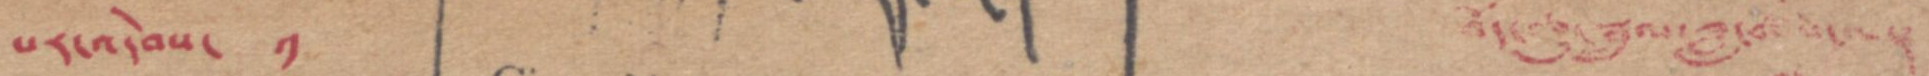པར་འདེབས་ ༡ བོད་ཆུ་སྦྲུལ་ཟླ་བ་
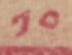༡༠
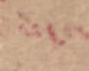ཚེས་
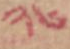༢༦
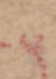ལ།
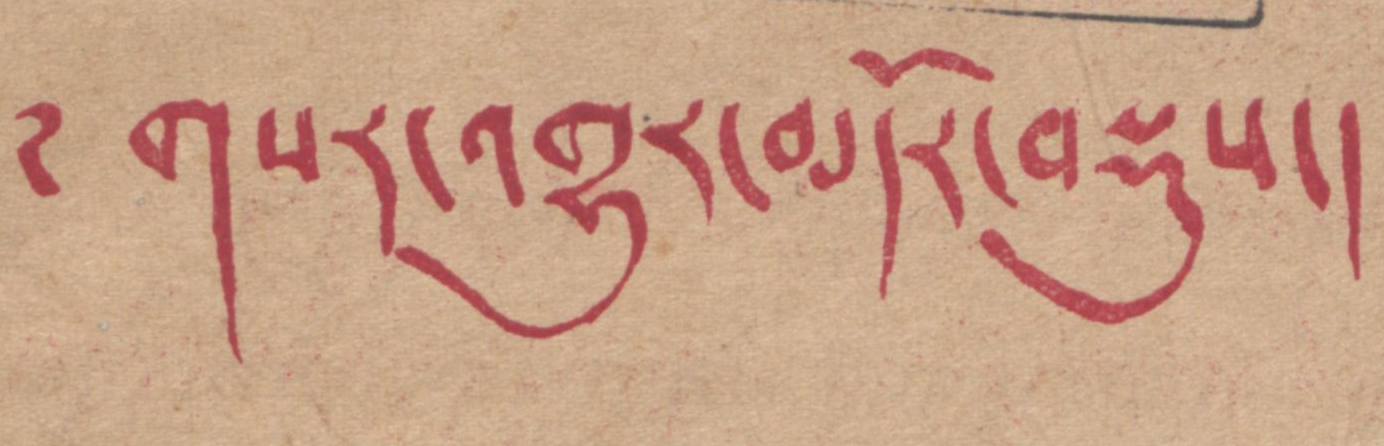༄ གསར་འགྱུར་མདོར་བསྡུས།
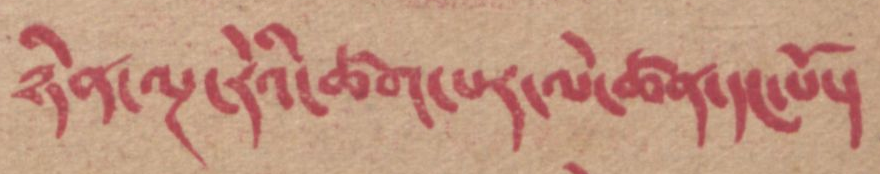ཉིན་ལྔ་རེའི་ཚག་པར་ལེ་ཚན་དང་པོ།
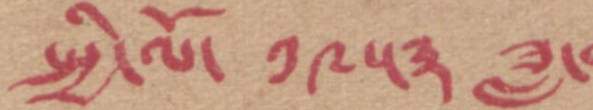སྤྱི་ལོ་ ༡༩༥༣ ཟླ་
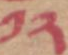༡༢
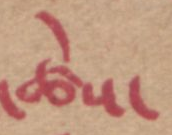ཚེས་
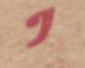༡
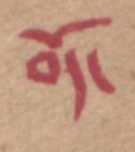བོད་
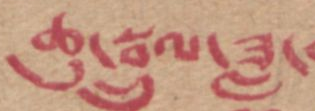ཆུ་སྦྲུལ་ཟླ་
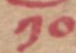༡༠
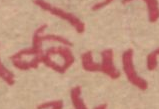ཚེས་
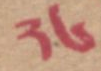༢༦
